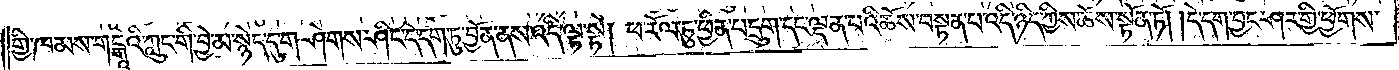གྱི་ཁམས་གངྒཱའི་ཀླུང་གི་བྱེ་མ་སྙེད་དུ་གཤེགས་ཤིང་དེ་དག་ཏུ་བྱོན་ནས་འདི་ལྟ་སྟེ། ཕ་རོལ་ཏུ་ཕྱིན་པ་དྲུག་དང་ལྡན་པའི་ཆོས་བསྟན་པ་འདི་ཉིད་ཀྱིས་ཆོས་སྟོན་ཏོ། །དེ་དག་བྱང་ཤར་གྱི་ཕྱོགས་
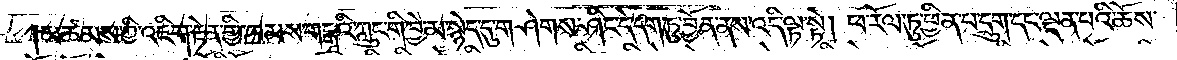མཚམས་ཀྱི་འཇིག་རྟེན་གྱི་ཁམས་གངྒཱའི་ཀླུང་གི་བྱེ་མ་སྙེད་དུ་གཤེགས་ཤིང་དེ་དག་ཏུ་བྱོན་ནས་འདི་ལྟ་སྟེ། ཕ་རོལ་ཏུ་ཕྱིན་པ་དྲུག་དང་ལྡན་པའི་ཆོས་
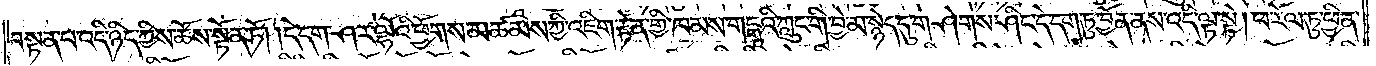བསྟན་པ་འདི་ཉིད་ཀྱིས་ཆོས་སྟོན་ཏོ། །དེ་དག་ཤར་ལྷོའི་ཕྱོགས་མཚམས་ཀྱི་འཇིག་རྟེན་གྱི་ཁམས་གངྒཱའི་ཀླུང་གི་བྱེ་མ་སྙེད་དུ་གཤེགས་ཤིང་དེ་དག་ཏུ་བྱོན་ནས་འདི་ལྟ་སྟེ། ཕ་རོལ་ཏུ་ཕྱིན་
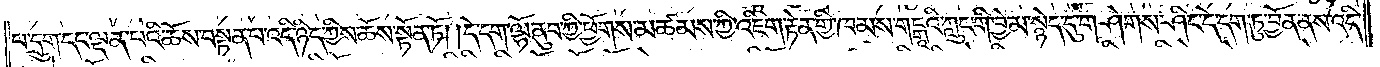པ་དྲུག་དང་ལྡན་པའི་ཆོས་བསྟན་པ་འདི་ཉིད་ཀྱིས་ཆོས་སྟོན་ཏོ། །དེ་དག་ལྷོ་ནུབ་ཀྱི་ཕྱོགས་མཚམས་ཀྱི་འཇིག་རྟེན་གྱི་ཁམས་གངྒཱའི་ཀླུང་གི་བྱེ་མ་སྙེད་དུ་གཤེགས་ཤིང་དེ་དག་ཏུ་བྱོན་ནས་འདི་
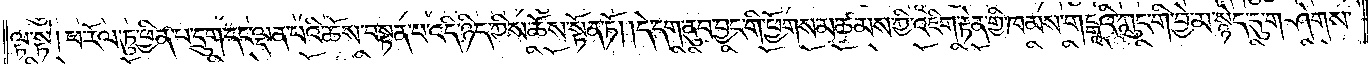ལྟ་སྟེ། ཕ་རོལ་ཏུ་ཕྱིན་པ་དྲུག་དང་ལྡན་པའི་ཆོས་བསྟན་པ་འདི་ཉིད་ཀྱིས་ཆོས་སྟོན་ཏོ། །དེ་དག་ནུབ་བྱང་གི་ཕྱོགས་མཚམས་ཀྱི་འཇིག་རྟེན་གྱི་ཁམས་གངྒཱའི་ཀླུང་གི་བྱེ་མ་སྙེད་དུ་གཤེགས་
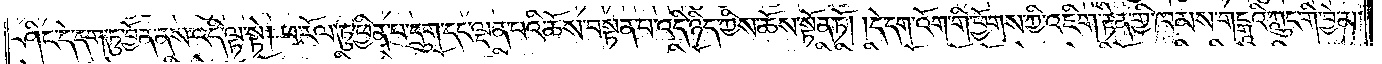ཤིང་དེ་དག་ཏུ་བྱོན་ནས་འདི་ལྟ་སྟེ། ཕ་རོལ་ཏུ་ཕྱིན་པ་དྲུག་དང་ལྡན་པའི་ཆོས་བསྟན་པ་འདི་ཉིད་ཀྱིས་ཆོས་སྟོན་ཏོ། །དེ་དག་འོག་གི་ཕྱོགས་ཀྱི་འཇིག་རྟེན་གྱི་ཁམས་གངྒཱའི་ཀླུང་གི་བྱེ་མ་
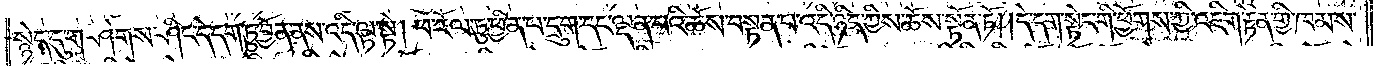སྙེད་དུ་གཤེགས་ཤིང་དེ་དག་ཏུ་བྱོན་ནས་འདི་ལྟ་སྟེ། ཕ་རོལ་ཏུ་ཕྱིན་པ་དྲུག་དང་ལྡན་པའི་ཆོས་བསྟན་པ་འདི་ཉིད་ཀྱིས་ཆོས་སྟོན་ཏོ། །དེ་དག་སྟེང་གི་ཕྱོགས་ཀྱི་འཇིག་རྟེན་གྱི་ཁམས་
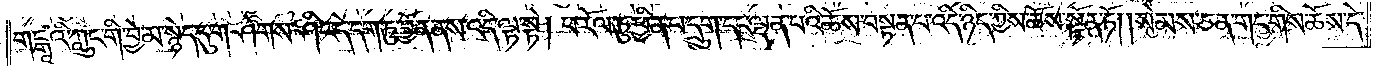གངྒཱའི་ཀླུང་གི་བྱེ་མ་སྙེད་དུ་གཤེགས་ཤིང་དེ་དག་ཏུ་བྱོན་ནས་འདི་ལྟ་སྟེ། ཕ་རོལ་ཏུ་ཕྱིན་པ་དྲུག་དང་ལྡན་པའི་ཆོས་བསྟན་པ་འདི་ཉིད་ཀྱིས་ཆོས་སྟོན་ཏོ། །སེམས་ཅན་གང་གིས་ཆོས་དེ་
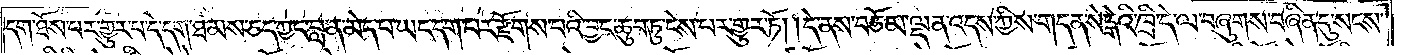དག་ཐོས་པར་གྱུར་པ་དེ་དག་ཐམས་ཅད་ཀྱང་བླ་ན་མེད་པ་ཡང་དག་པར་རྫོགས་པའི་བྱང་ཆུབ་ཏུ་ངེས་པར་གྱུར་ཏོ། །དེ་ནས་བཅོམ་ལྡན་འདས་ཀྱིས་གདན་སེངྒེའི་ཁྲི་དེ་ལ་བཞུགས་བཞིན་དུ་སངས་
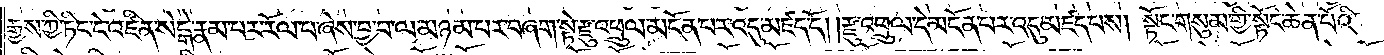རྒྱས་ཀྱི་ཏིང་ངེ་འཛིན་སེངྒེ་རྣམ་པར་རོལ་པ་ཞེས་བྱ་བ་ལ་མཉམ་པར་བཞག་སྟེ་རྫུ་འཕྲུལ་མངོན་པར་འདུ་མཛད་དོ། །རྫུ་འཕྲུལ་དེ་མངོན་པར་འདུ་མཛད་པས། སྟོང་གསུམ་གྱི་སྟོང་ཆེན་པོའི་
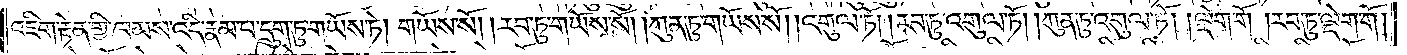འཇིག་རྟེན་གྱི་ཁམས་འདི་རྣམ་པ་དྲུག་ཏུ་གཡོས་ཏེ། གཡོས་སོ། །རབ་ཏུ་གཡོས་སོ། །ཀུན་ཏུ་གཡོས་སོ། །འགུལ་ཏོ། །རབ་ཏུ་འགུལ་ཏོ། །ཀུན་ཏུ་འགུལ་ཏོ། །ལྡེག་གོ །རབ་ཏུ་ལྡེག་གོ །
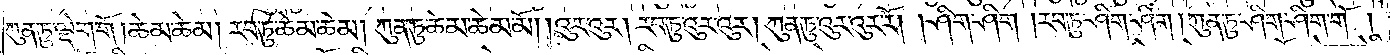ཀུན་ཏུ་ལྡེག་གོ །ཆེམ་ཆེམ། རབ་ཏུ་ཆེམ་ཆེམ། ཀུན་ཏུ་ཆེམ་ཆེམ་མོ། །འུར་འུར། རབ་ཏུ་འུར་འུར། ཀུན་ཏུ་འུར་འུར་རོ། །ཤིག་ཤིག །རབ་ཏུ་ཤིག་ཤིག །ཀུན་ཏུ་ཤིག་ཤིག་གོ །
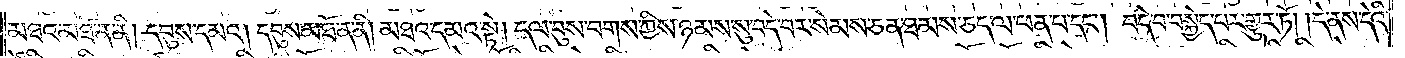མཐའ་མཐོ་ན་ནི། དབུས་དམའ། དབུས་མཐོ་ན་ནི། མཐའ་དམའ་སྟེ། དལ་བུས་བགས་ཀྱིས་ཉམས་སུ་བདེ་བར་སེམས་ཅན་ཐམས་ཅད་ལ་ཕན་པ་དང༌། བདེ་བ་བསྐྱེད་པར་གྱུར་ཏོ། །དེ་ནས་དེའི་
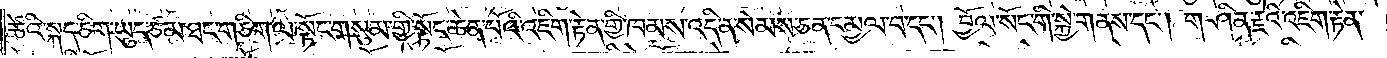ཚེའི་སྐད་ཅིག་ཡུད་ཙམ་ཐང་གཅིག་ལ་སྟོང་གསུམ་གྱི་སྟོང་ཆེན་པོའི་འཇིག་རྟེན་གྱི་ཁམས་འདི་ན་སེམས་ཅན་དམྱལ་བ་དང༌། བྱོལ་སོང་གི་སྐྱེ་གནས་དང༌། གཤིན་རྗེའི་འཇིག་རྟེན་
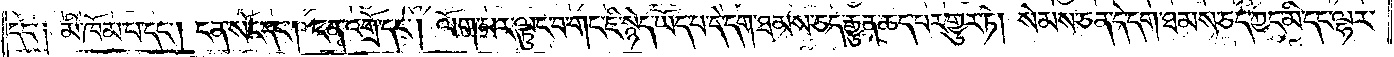དང༌། མི་ཁོམ་པ་དང༌། ངན་སོང་དང༌། ངན་འགྲོ་དང༌། ལོག་པར་ལྟུང་བ་གང་ཇི་སྙེད་ཡོད་པ་དེ་དག་ཐམས་ཅད་རྒྱུན་ཆད་པར་གྱུར་ཏེ། སེམས་ཅན་དེ་དག་ཐམས་ཅད་ཀྱང་མི་དང་ལྷར་
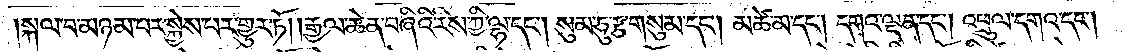སྐལ་བ་མཉམ་པར་སྐྱེས་པར་གྱུར་ཏོ། །རྒྱལ་ཆེན་བཞིའི་རིས་ཀྱི་ལྷ་དང༌། སུམ་ཅུ་རྩ་གསུམ་དང༌། མཚེ་མ་དང༌། དགའ་ལྡན་དང༌། འཕྲུལ་དགའ་དང༌།
